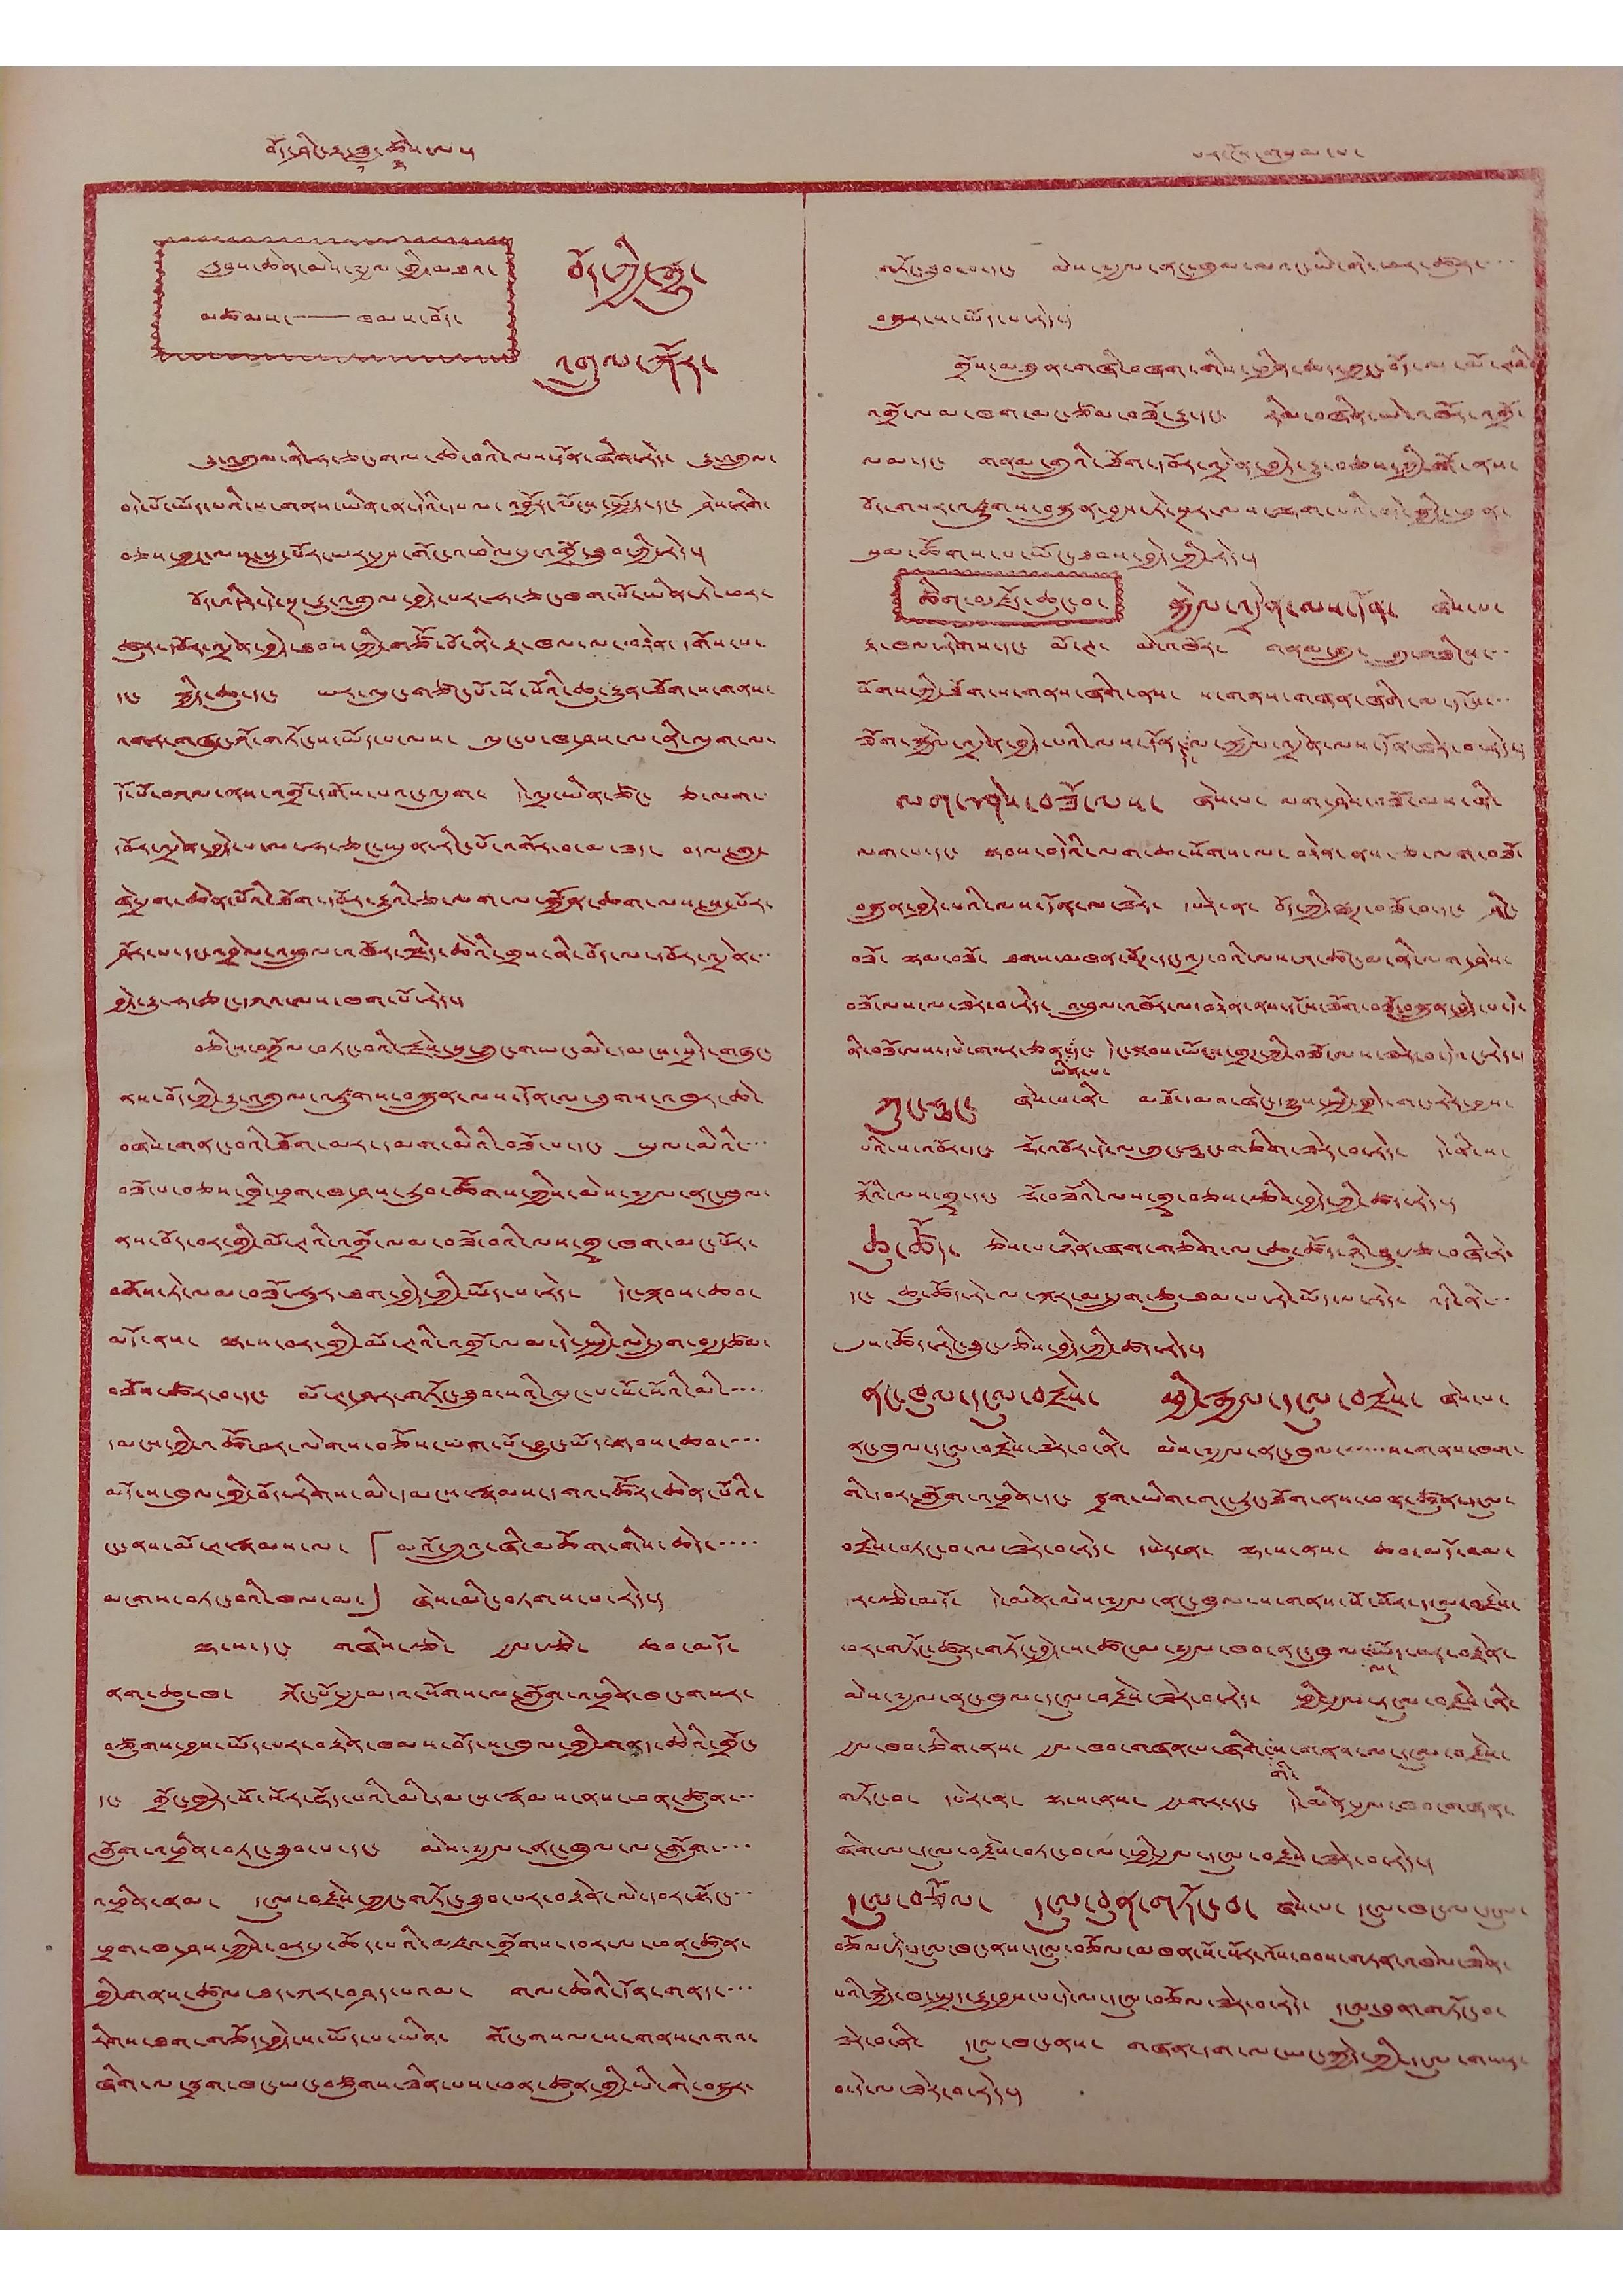བོད་ཤིང་རྟ་ཟླ་
༡
ཚེས་
༣
ལ་། པར་ངོས་གསུམ་པ་
རླབས་ཆེན་མེས་༸རྒྱལ་གྱི་མཐའ་
མཚམས་ ཁམས་བོད་
བོད་ཀྱི་རྒྱུ་
འགྲུལ་སྐོར་
རྒྱུ་འགྲུལ་ནི་ཧ་ཅང་གལ་ཆེ་བའི་ལས་དོན་ཞིག་རེད་ རྒྱུ་འགྲུལ་
བདེ་པོ་ཡོད་པའི་ས་གནས་ཡིན་ན་དེའི་དཔལ་འབྱོར་ལོངས་སྤྱོད་དང་ ཤེས་རིག་
བཅས་ཀྱང་ལས་སླ་པོར་ཡར་རྒྱས་གོང་འཕེལ་དུ་འགྲོ་ཐུབ་ཀྱི་རེད་།
བོད་འདིར་དེ་སྔ་རྒྱུ་འགྲུལ་བྱེད་པར་ཧ་ཅང་ཁག་པོ་ཡིན་ཏེ་ཕར་
ཚུར་དབོར་འདྲེན་བྱེད་ཐབས་ཀྱི་གཙོ་བོ་ནི་རྟ་ཁལ་ལ་བསྟེན་དགོས་པ་
དང་ སྐྱིད་ཆུ་དང་ ཡར་ལུང་གཙང་པོ་སོ་སོའི་ཆུ་རྒྱུན་ཐོག་ས་གནས་
འགན་གཞུང་གོ་གཏོང་ས་ཡོད་པ་ལས་ ལུང་པ་ཁ་ཤས་ལ་ནི་འདུག་ལ་
དོ་པོ་བཀལ་ནས་འགྲོ་དགོས་པའང་འདུག་ དེ་འདྲ་ཡིན་ཙང་ ཅ་ལག་
དབོར་འདྲེན་བྱེད་པ་ལ་ཧ་ཅང་ཡུན་རིང་པོ་འགོར་བ་མ་ཟད་ བདལ་གླ་
ཞེ་དྲག་ཆེན་པོའི་ཐོག་དབོར་རྒྱུའི་ཅ་ལག་ལ་སྐྱོན་ཆག་ལས་སླ་པོར་
ཤོར་པ་དང་འབྲེལ་འཕྲུལ་འཁོར་ལྗིད་ཆེའི་གྲས་ནི་བོད་ལ་དབོར་འདྲེན་་་
བྱེད་རྒྱུ་ཧ་ཅང་དཀའ་ལས་ཁག་པོ་རེད་།
བཅིངས་བཀྲོལ་བཏང་བའི་རྗེས་སུ་ཀྲུང་གཡང་མི་དམངས་སྲིད་གཞུང་
ནས་བོད་ཀྱི་རྒྱུ་འགྲུལ་འཛུགས་བསྐྲུན་ལས་དོན་མ་ཐུགས་འཁུར་ཆེ་
བཞེས་གནང་བའི་ཐོག་མར་དམག་མིའི་བཟོ་པ་དང་ ཡུལ་མིའི་་་་
བཟོ་པ་བཅས་ཁྲི་ཕྲག་ཁ་ཤས་རུབ་ཚོགས་ཀྱིས་མེས་༸རྒྱལ་ནང་ཁུལ་
ནས་བོད་བར་གྱི་མོ་ཊའི་འགྲོ་ལམ་བཟོ་བའི་ལས་གྲྭ་ཁག་མང་པོར་
བགོས་ཏེ་ལམ་བཟོ་ཧུར་ཐག་བྱེད་ཀྱི་ཡོད་པ་རེད་ དེང་སྐབས་ཆབ་
མདོ་ནས་ ལྷ་ས་བར་གྱི་མོ་ཊའི་འགྲོ་ལམ་དེ་སྤྱི་ལེ་དྲུག་བརྒྱ་ཙམ་
བཟོས་ཚར་བ་དང་ མོ་ཊ་ཤར་གཏོང་ཐུབ་སའི་ལུང་པ་སོ་སོའི་མི་་་་
དམངས་ཀྱི་འཚོ་བར་ལེགས་བཅོས་ཡག་པོ་བྱུང་ཡོད་སྟབས་ཆབ་་་་
མདོ་ས་ཁུལ་གྱི་བོད་རིགས་མི་དམངས་རྣམས་དགའ་ཚོར་ཆེན་པོའི་
ངང་ནས་མོ་ཊ་རྣམས་ལ་ 「མའོ་ཀྲུའུ་ཞི་མཆོག་གིས་ཆེད་་་་་
མངགས་བཏང་བའི་ཁལ་མ་」 ཞེས་མིང་བཏགས་པ་རེད་།
ལྷ་ས་དང་ གཞིས་རྩེ་ རྒྱལ་རྩེ་ ཆབ་མདོ་
ནག་ཆུ་ཁ་ ཀོང་པོ་རྒྱ་མདའ་སོགས་ལ་གློག་འཕྲིན་ཁང་གསར་
བཙུགས་བྱས་ཡོད་པར་བརྟེན་ཁམས་བོད་ས་ཁུལ་གྱི་གནད་ཆེའི་གྲོང་
དང་ གྲོང་ཁྱེར་སོ་སོར་སྡོད་པའི་མི་དམངས་རྣམས་ནས་ཕན་ཚུན་་་
གློག་འཕྲིན་བཏང་ཐུབ་པ་དང་ མེས་༸རྒྱལ་ནང་ཁུལ་ལ་གློག་་་་
འཕྲིན་ནམ་ དངུལ་བརྗེས་ཀྱང་གཏོང་ཐུབ་པར་བརྟེན་ལེ་དབར་སྟོང་་་
ཕྲག་ཁ་ཤས་ཀྱིས་བར་དུ་ཆོད་པའི་མཛའ་གྲོགས་དབར་ལ་ཕན་ཚུན་
གྱི་གནས་ཚུལ་ཐད་ཀར་བཤད་པའམ་ གལ་ཆེའི་དོན་གནད་་་་
རིགས་ཐག་གཅོད་བྱེད་ས་ཡོད་པ་ཡིན་ གོང་གསལ་ས་གནས་འགའ་
ཞིག་ལ་སྦྲག་ཁང་ཡང་བཙུགས་ཟིན་པས་ཕན་ཚུན་གྱི་ཡི་གེ་བསྐུར་
གཏོང་ཐུབ་པ་དང་ མེས་༸རྒྱལ་ནང་ཁུལ་ལའང་ཡི་གེ་ཕར་ཚུར་་་་
བསྐུར་ས་ཡོད་་པ་རེད་།
གྲོས་མཐུན་གཞི་བཞག་གིས་ཕྱིན་ཆད་ཀྱང་བོད་ལ་མོ་ཊའི་
འགྲོ་ལམ་ཁག་མང་ཙམ་བཟོ་རྒྱུ་དང་ རིམ་བཞིན་མེ་འཁོར་འགྲོ་
ལམ་དང་ གནམ་གྲུའི་ཐོག་དབོར་འདྲེན་བྱེད་རྒྱུ་བཅས་ཀྱི་སྒོ་ནས་
བོད་གསར་འཛུགས་བསྐྲུན་བྱས་ཏེ་སྔར་ལས་ལྷག་པའི་བདེ་སྐྱིད་ཕུན་
སུམ་ཚོགས་པ་ཡོང་ཐབས་བྱེད་ཀྱི་རེད་།
ཚིག་མཛོད་ཆུང་བ་
སྐྱེལ་འདྲེན་ལས་དོན་ ཞེས་པ་
རྟ་ཁལ་རིགས་དང་ མོ་ཊ་ མེ་འཁོར་ གནམ་གྲུ་ གྲུ་གཟིངས་་་
སོགས་ཀྱི་ཐོག་ས་གནས་ཞིག་ནས་ ས་གནས་གཞན་ཞིག་ལ་དངོས་་་
ཟོག་སྐྱེལ་འདྲེན་བྱེད་པའི་ལས་དོན་
དེ་
ལ་སྐྱེལ་འདྲེན་ལས་དོན་ཟེར་བ་རེད་།
ལག་ཤེས་བཟོ་ལས་ ཞེས་པ་ ལག་ཤེས་བཟོ་ལས་ནི་
ལག་པ་དང་ སྟབས་བདེའི་ལག་ཆ་སོགས་ལ་བརྟེན་ནས་ཅ་ལག་བཟོ་
བསྐྲུན་བྱེད་པའི་ལས་དོན་ལ་ཟེར་ དཔེར་ན་ བོད་ཀྱི་ལྕཊ་བཟོ་བ་དང་ ཤིང་
བཟོ་ ལྷམ་བཟོ་ ཐགས་མཁན་སོཊ་དང་འདྲ་བའི་ལས་ཀ་ཚང་མ་ནི་ལག་ཤེས་
བཟོ་ལས་ལ་ཟེར་བ་རེད་ འཕྲུལ་འཁོར་ལ་བརྟེན་ནས་དངོས་ཟོག་བཟོ་བསྐྲུན་བྱེད་པ་དེ་
ནི་བཟོ་ལས་དཔེ་གསར་ཅན་
ཡིན་པ་
དང་ དེང་སྐབས་ཡོངས་གྲཊ་ཀྱི་བཟོ་ལས་ཟེར་བ་དེའང་རེད་།
ཀུང་ཧྥང་ ཞེས་པ་ནི་ མཐོ་དམའ་ཞེང་དཀྱུས་སྤྱི་ཁྲེ་གང་རེར་བྱས་
པའི་ས་འབོར་དང་ རྡོ་འབོར་དེ་ལ་ཀུང་ཧྥང་གཅིག་ཟེར་བ་རེད་ དེ་ནི་ས་
རྐོའི་ལས་གྲྭ་དང་ རྡོ་བཟོའི་ལས་གྲྭ་བཅས་རྩིས་བྱེད་ཀྱི་ཚར་རེད་།
ཆུ་ཚོད་ ཅེས་པ་ཉིན་ཞག་གཅིག་ལ་ཆུ་ཚོད་ཉི་ཤུ་རྩ་བཞི་རེ་
དང་ ཆུ་ཚོད་རེ་ལ་སྐར་མ་དྲུག་ཅུ་ཐམ་པ་རེ་ཡོད་པ་རེད་ འདི་ནི་་་
དུས་ཚོད་རིང་ཐུང་རྩིས་བྱེད་ཀྱི་ཚད་རེད་།
ནང་ཁུལ་དངུལ་བརྗེས་ ཕྱི་རྒྱལ་དངུལ་བརྗེས་ ཞེས་པ་
ནང་ཁུལ་དངུལ་བརྗེས་ཟེར་བ་ནི་ མེས་༸རྒྱལ་ནང་ཁུལ་་་་་་ས་གནས་ཁག་
གི་དབར་གློག་འཕྲིན་དང་ སྦྲག་ཡིག་གང་རུང་ཐོག་ནས་ཕན་ཚུན་དངུལ་
བརྗེས་བཏང་བ་ལ་ཟེར་བ་རེད་ དཔེར་ན་ ལྷ་ས་ནས་ ཆབ་མདོ་འམ་
དར་རྩེ་མདོ་ དེ་མིན་མེས་༸རྒྱལ་ནང་ཁུལ་ས་གནས་སོ་སོར་དངུལ་བརྗེས་
ཕར་གཏོང་ཚུར་གཏོང་བྱེད་ས་ཚང་མ་༸རྒྱལ་ཁབ་ནང་ཁུལ་
ལ་
ཡོད་པར་བརྟེན་
མེས་༸རྒྱལ་ནང་ཁུལ་དངུལ་བརྗེས་ཟེར་བ་རེད་ ཕྱི་རྒྱལ་དངུལ་བརྗེས་ནི་
རྒྱལ་ཁབ་ཅིག་ནས་ རྒྱལ་ཁབ་གཞན་པ་ཞིག་
གི་
ས་གནས་ལ་དངུལ་བརྗེས་
གཏོང་བ་ དཔེར་ན་ ལྷ་ས་ནས་ རྒྱ་གར་དང་ དེ་མིན་རྒྱལ་ཁབ་གཞན་
ཞིག་ལ་དངུལ་བརྗེས་བཏང་བ་ལ་ཕྱི་རྒྱལ་དངུལ་བརྗེས་ཟེར་བ་རེད་།
དངུལ་བཅོལ་ དངུལ་བུན་གཏོང་བ་ ཞེས་པ་ དངུལ་ཁང་ལ་དངུལ་
བཅོལ་ཏེ་དངུལ་ཁང་ནས་དངུལ་བཅོལ་མཁན་སོ་སོར་འོས་བབས་གཏན་འཁེལ་ཟིན་
པའི་སྐྱེད་ཁ་སྤྲད་རྒྱུ་བྱས་པ་དེ་ལ་དངུལ་བཅོལ་ཟེར་བ་རེད་ དངུལ་བུན་གཏོང་བ་
ཟེར་བ་ནི་ དངུལ་ཁང་ནས་ གཞན་དག་ལ་ཡང་སྐྱེད་ཀྱི་དངུལ་གསར་
བ་དེ་ལ་ཟེར་བ་རེད་།
